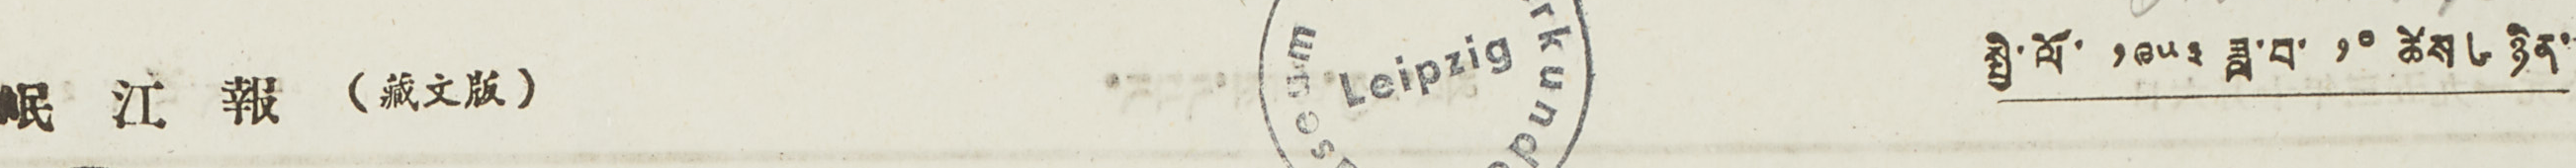岷 江 報 （藏文版） སྤྱི་ལོ་ ༡༩༥༣ ཟླ་བ་ ༡༠ ཚེས ༦ ཉིན་
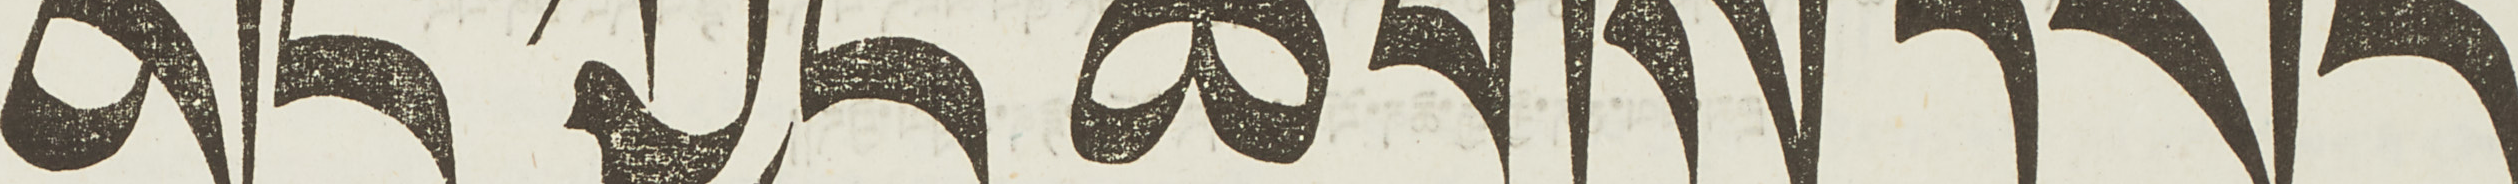མིང་ཀྱང་ཚགས་དཔར་
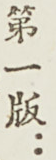第一版：
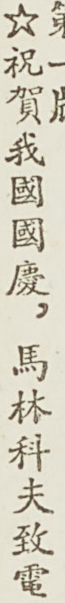☆祝賀我國國慶，馬林科夫致電
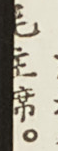毛主席。
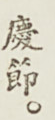慶節。
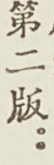第二版：
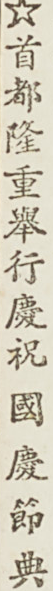☆首都隆重舉行慶祝國慶節典
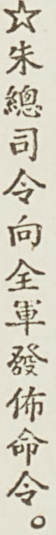☆朱總司令向全軍發佈命令。
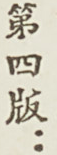第四版：
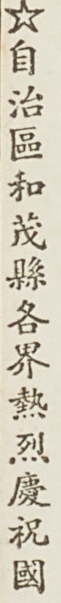☆自治區和茂縣各界熱烈慶祝國
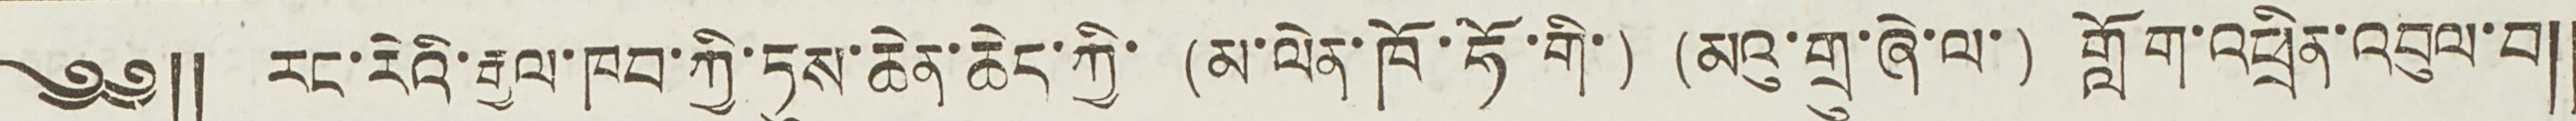༄༅༎ རང་རེའི་རྒྱལ་ཁབ་ཀྱི་ཏུས་ཆེན་ཆེད་ཀྱི་ (མ་ལེན་ཁོ་ཧོ་གི་) (མའུ་གྲུ་ཞེ་ལ་) གློག་འཕྲིན་འབུལ་བ༎
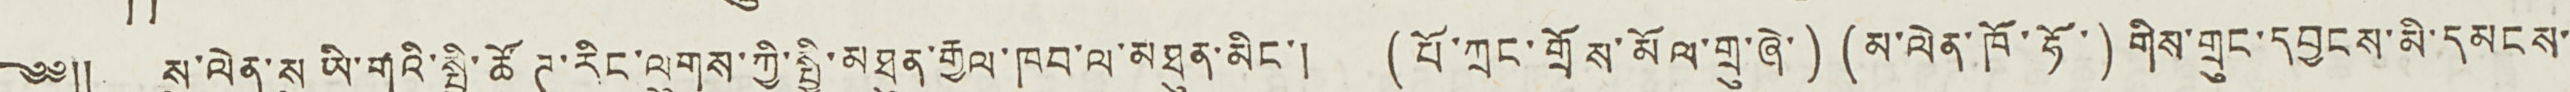༄༅༎ སུ་ལེན་སུ ཡི་གའི་སྤྱི་ཚོཊ་རིང་ལུགས་ཀྱི་སྤྱི་མཐུན་རྒྱལ་ཁབ་ལ་མཐུན་མིང་། (པོ་ཀྲང་གྲོས་མོལ་གྲུ་ཞེ་) (མ་ལེན་ཁོ་ཧོ་) གིས་གུང་དབྱངས་མི་དམངས་
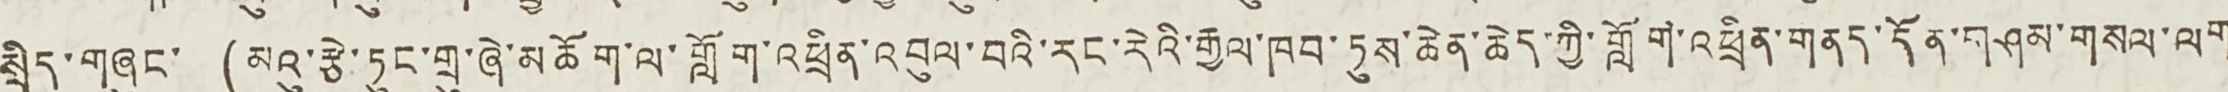སྲིད་གཞུང་ (མའུ་རྩེ་ཏུང་གྲུ་ཞེ་མཆོག་ལ་གློག་འཕྲིན་འབུལ་བའི་རང་རེའི་རྒྱལ་ཁབ་ཏུས་ཆེན་ཆེད་ཀྱི་གློག་འཕྲིན་གནད་དོན་གཤམ་གསལ་ལག
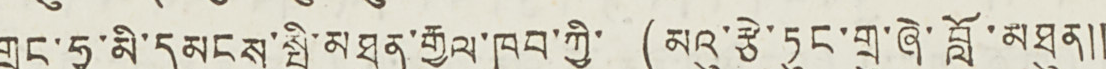གྲུང་ཧྭ་མི་དམངས་སྤྱི་མཐུན་རྒྱལ་ཁབ་ཀྱི་ (མའུ་རྩེ་ཏུང་གྲུ་ཞེ་བློ་མཐུན༎
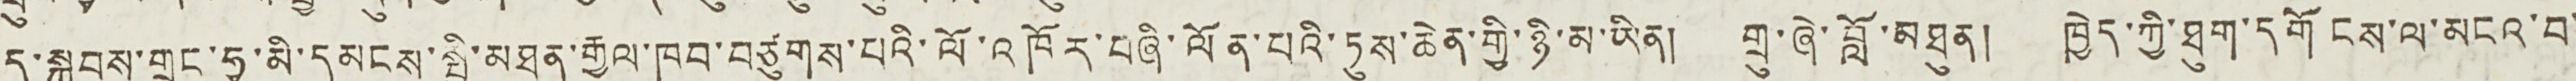ད་སྐབས་གྲུང་ཧྭ་མི་དམངས་སྤྱི་མཐུན་རྒྱལ་ཁབ་བཙུགས་པའི་ལོ་འཁོར་བཞི་ལོན་པའི་དུས་ཆེན་གྱི་ཉི་མ་ཡིན། གྲུ་ཞེ་བློ་མཐུན། ཁྱེད་ཀྱི་ཐུག་དགོངས་ལ་མངའ་བ་
